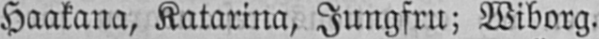Haakana, Katarina, Jungfru; Wiborg.
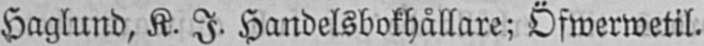Haglund, K. J. Handelsbokhållare; Öfwerwetil.
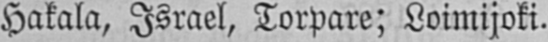Hakala, Israel, Torpare; Loimijoki.
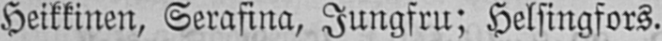Heikkinen, Serafina, Jungfru; Helsingfors.
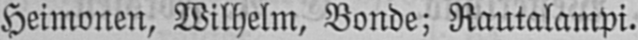Heimonen, Wilhelm, Bonde; Rautalampi.
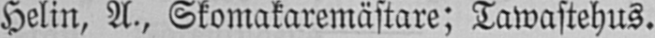Helin, A., Skomakaremästare; Tawastehus.
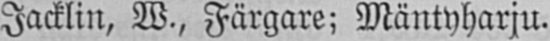Jacklin, W., Färgare; Mäntyharju.
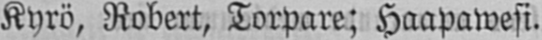Kyrö, Robert, Torpare; Haapawesi.
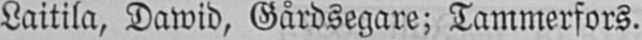Laitila, Dawid, Gårdsegare; Tammerfors.
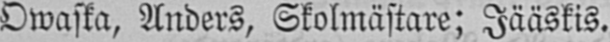Owaska, Anders, Skolmästare; Jääskis.
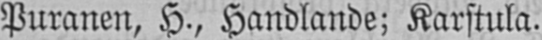Puranen, H., Handlande; Karstula.
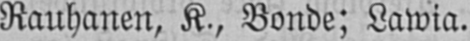Rauhanen, K, Bonde; Lawia.
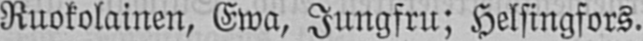Ruokolainen, Ewa, Jungfru; Helsingfors.
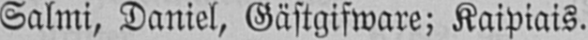Salmi, Daniel, Gästgifware; Kaipiais.
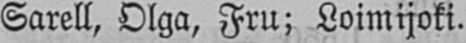Sarell, Olga, Fru; Loimijoki.
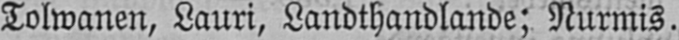Tolwanen, Lauri, Landthandlande; Nurmis.
